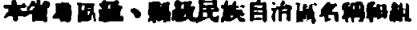本省專區級、縣級民族自治區名稱和組
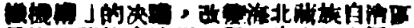織機構」的決議，改變海北藏族自治區
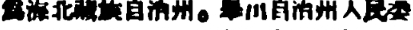爲海北藏族自治州。舉出自治州人民委
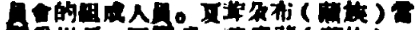員會的組成人員。夏茸尕布（藏族）當
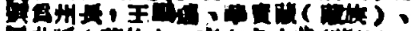選爲州長，王鵬遠、華寶藏（藏族）、
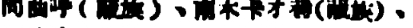同曲呼（藏族）、南木卡才巷（藏族）、
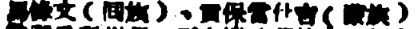馬祿文（囘族）、貢保當什吉（蒙族）
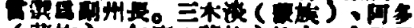當選爲副州長。三木淡（蒙族）、阿多
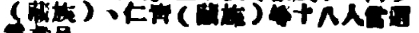（藏族）、人靑（藏族）等十八人當選
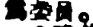爲委員。
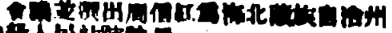會議並選出周信紅爲海北藏族自治州
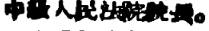中級人民法院院長。
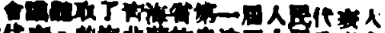會議聽取了靑海省第一屆人民代表大
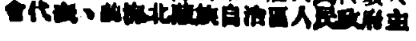會代表、前海北藏族自治區人民政府主
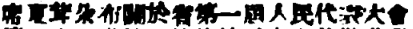席夏茸尕布關於省第一屆人民代表大會
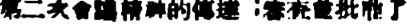第二次會議精神的傳達；審查並批准了
